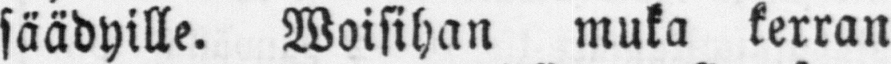säädyille. Woisihan muka kerran
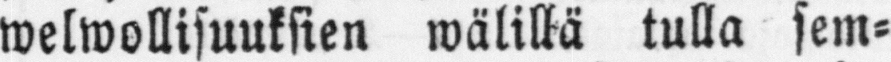welwollisuuksien wälillä tulla sem-
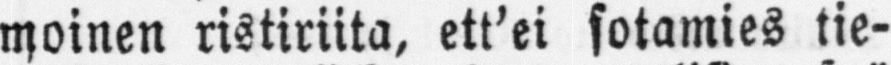moinen ristiriita, ett'ei sotamies tie-
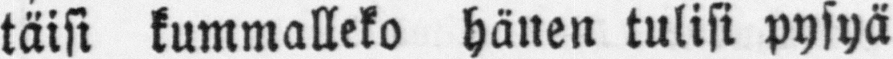täisi kummalleko hänen tulisi pysyä
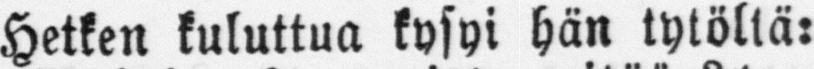Hetken kuluttua kysyi hän tytöltä:
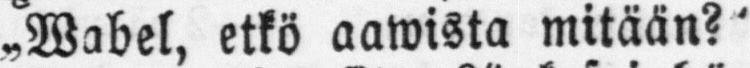„Wabel, etkö aawista mitään?"
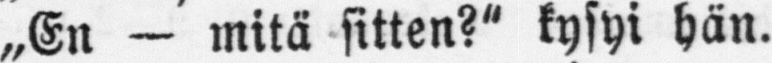„En — mitä sitten?" kysyi hän.
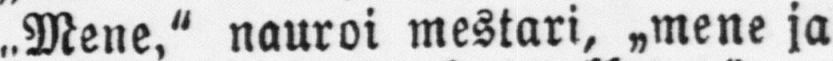„Mene," nauroi mestari, „mene ja
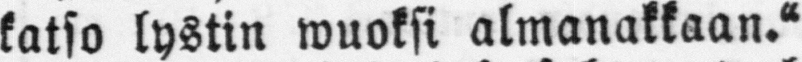katso lystin wuoksi almanakkaan."
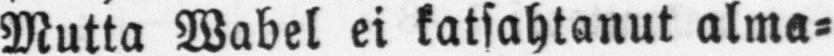Mutta Wabel ei katsahtanut alma-
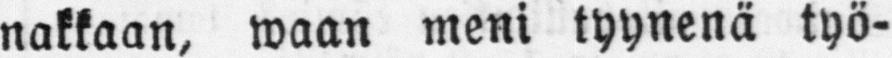nakkaan, waan meni tyynenä työ-
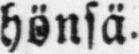hönsä.
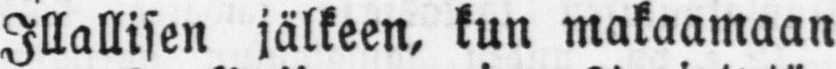Illallisen jälkeen, kun makaamaan
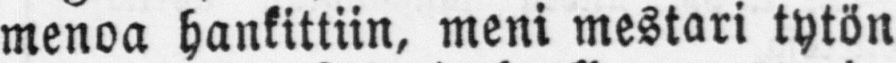menoa hankittiin, meni mestari tytön
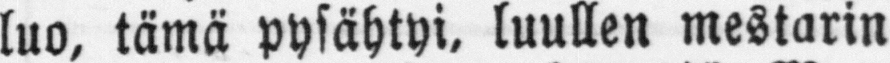luo, tämä pysähtyi, luullen mestarin
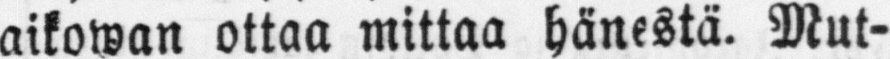aikowan ottaa mittaa hänestä. Mut-
